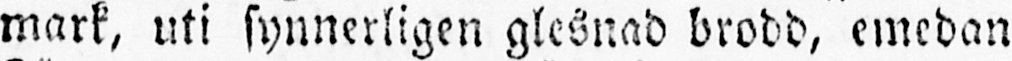mark, uti synnerligen glesnad brodd, emedan
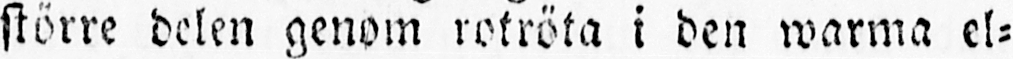större delen genom rotröta i den warma el-
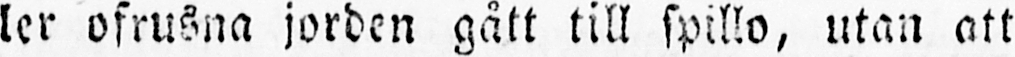ler ofrusna jorden gått till spillo, utan att
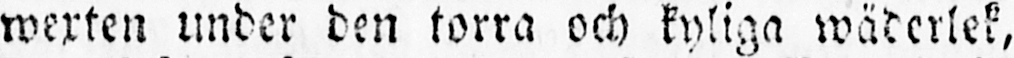wexten under den torra och kyliga wäderlek,
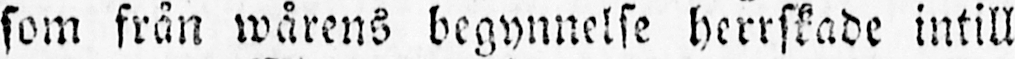som från wårens begynnelse herrskade intill
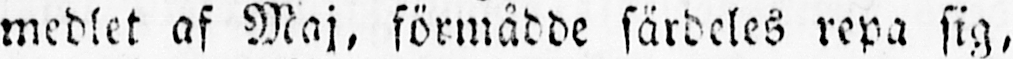medlet af Maj, förmådde särdeles repa sig,
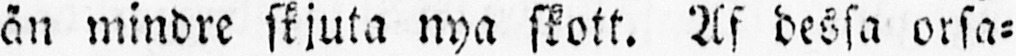än mindre skjuta nya skott. Af dessa orsa-
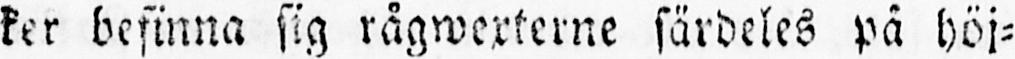ker besinna sig rågwexterne särdeles på höj-
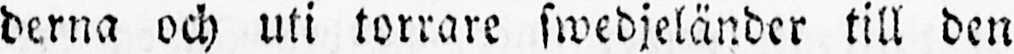derna och uti torrare swedjeländer till den
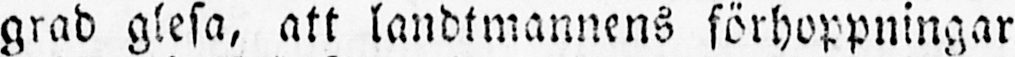grad glesa, att landtmannens förhoppningar
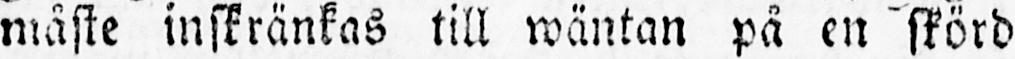måste inskränkas till wäntan på en skörd
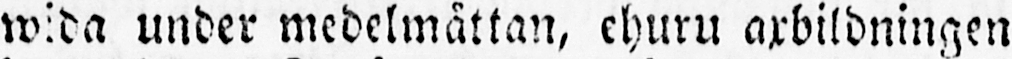wida under medelmåttan, ehuru axbildningen
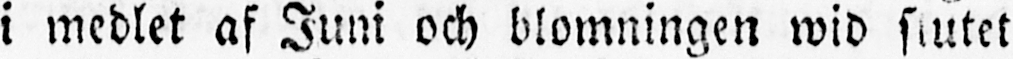i medlet af Juni och blomningen wid slutet
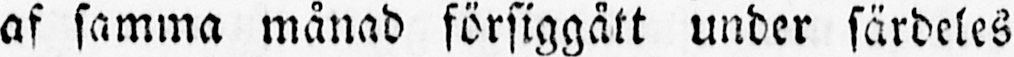af samma månad försiggått under särdeles
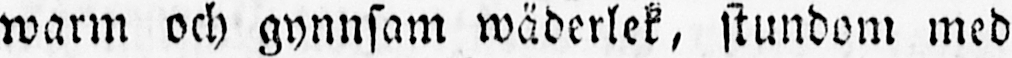warm och gynnsam wäderlek, stundom med
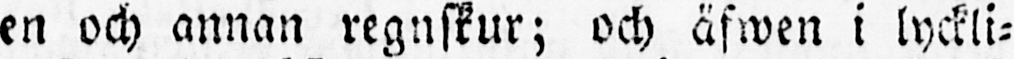en och annan regnskur; och äfwen i lyckli-
